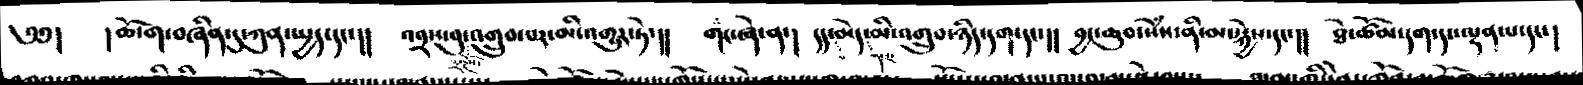༄༅།  །ཆོ་ག་བཞིན་དུ་ཀུན་སྤྱད་དང་།།  འབྲས་བུ་འགྲུབ་པར་མོ་འགྱུར་ཏེ་།།  གང་ཞེ་ན་།  དད་མེད་མི་འགྲུབ་ཉིད་དག་དང་།།  བྱང་ཆུབ་སེཾས་ནི་མ་སྐྱེས་དང་།།  ཐེ་ཚོམ་དག་དང་ལྡན་པ་དང་།
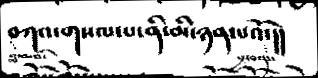བཀའ་གསལ་པ་ནི་མི་ཉན་པའོ་།།
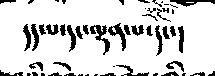དད་པ་དང་ལྡན་པ་དང་།
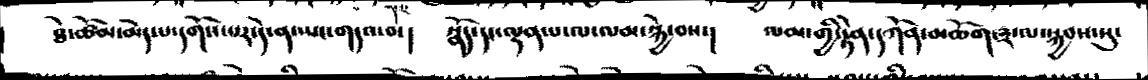ཐེ་ཚོམ་མེད་པ་དགོས་པར་དེ་ན་ཡང་དག་གདའ་བ་།  སྣོད་དང་ལྡན་པ་ལ་ལམ་སྐྱེ་བས་།  ལམ་གྱི་རྟེན་དཀོན་མཆོག་༣་ལ་སྐྱབས་སུ་
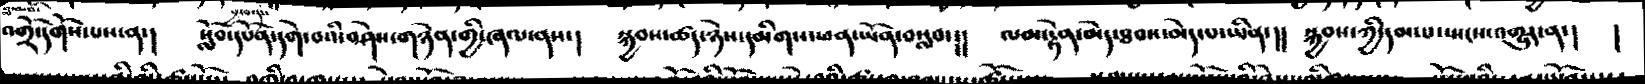འགྲོ་དགོས་པས་ན་།  སློབ་དཔོན་དགེ་བའི་བཤེས་གཉེན་གྱི་ཞལ་ནས་།  སྐྱབས་ཚད་ཉེས་དམིགས་ཕན་ཡོན་བསླབ་།།  ལམ་རྟེན་མེད་ཐབས་མེད་པ་ཡིན་།།  སྐྱབས་ཀྱི་དམ་པ་སྤངས་འགྱུར་ན་།  །
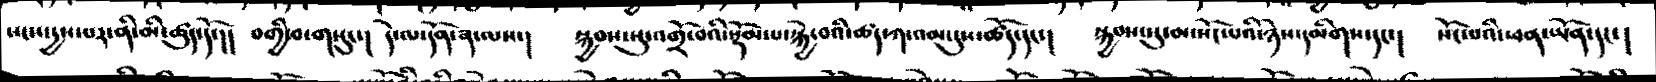སངས་དྱས་པར་ནི་མི་ཚུད་དོ་།།  བགྱི་བ་གསུང་།  དེ་ལ་དོན་ན་ལས་།  སྐྱབས་སུ་འགྲོ་བའི་སྡོམ་པ་སྐྱེ་བའི་ཚད་ཀ་འམ་དུས་ཚོད་དང་།  སྐྱབས་སུ་མ་སོང་པའི་ཉེས་དམིགས་དང་།  སོང་པའི་ཕན་ཡོན་དང་།
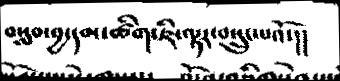བསླབ་བྱ་དམ་ཚིག་ཇི་ལྟར་བསྲུང་པའོ་།།
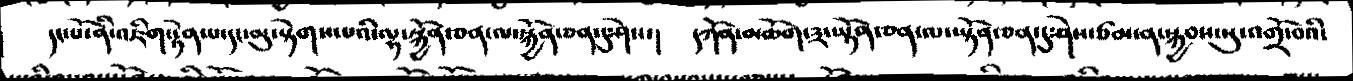དང་པོ་ནི་འཇིག་རྟེན་པ་དང་མུ་སྟེགས་པའི་ལྷ་སྐྱོན་ཅན་ལ་སྐྱོན་ཅན་དུ་ཤེས་།  དཀོན་མཆོག་༣་ཡྟོན་ཅན་པ་སྟོན་ཅན་ཅུ་ཤེས་ཙམ་ན་སྐྱབས་སུ་འགྲོ་བའི་
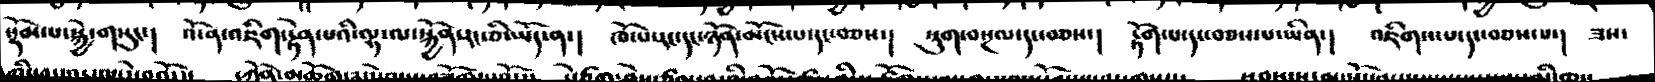སྡོམ་པ་སྐྱེ་གསུང་། འོ་ན་འཇིག་རྟེན་པའི་ལྷ་ལ་སྐྱོན་རང་ཅི་ཡོད་ན་།  ཁོ་པ་རང་དང་ཉོན་མོངས་པ་དང་བཅས་།  སྡུག་བསྔལ་དང་བཅས་། རྟོག་པ་དང་བཅས་པ་ཡིན་།  འཇིགས་པ་དང་བཅས་པ་། ཟས་
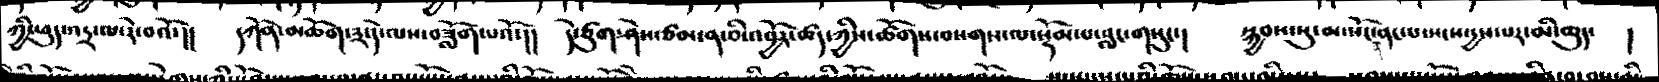ཀྱི་ཕུད་འདྲ་ལ་རེ་བའོ་།།  དཀོན་མཆོག་༣་དེ་ལས་བཟློག་པའོ་།།  དེ་ཙུག་ཤེས་ཙམ་ན་ཅི་འབྱོར་ཚད་ཀྱིས་ཚོགས་བསགས་ལ་སྡོམ་པ་བླང་གསུང་།  སྐྱབས་སུ་མ་སོང་ན་ནང་པ་སངས་དྱས་པར་མི་ཆུད་  །
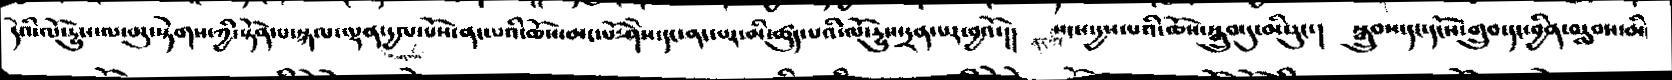དེའི་ལོ་དྱུས་ལ་ཆུ་སྟེགས་ཀྱི་སྟོན་པ་སྐལ་ལྡན་དྱལ་པོས་ནང་པའི་ཆོས་མང་པོ་ཤེས་དང་ནང་པར་མི་ཚུད་པའི་ལོ་དྱུས་དྲན་པར་བྱའོ་།།  སངས་དྱས་པའི་ཆོས་སྒྲུབ་དུ་མི་རུང་།  སྒྲུབས་དང་དངོས་གྲུབ་དང་བྱིན་བརླབས་མི་
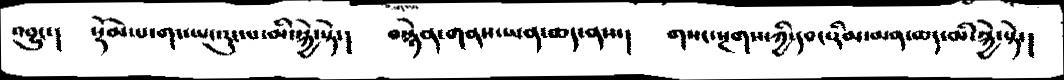འབྱུང་།  སྡོམ་པ་གང་ཡང་རུང་པ་མི་སྐྱེ་སྟེ་།  བསྙེན་གནས་ཡན་ཆད་ནས་།  གསང་སྔགས་ཀྱི་དབང་རིམ་མན་ཆད་མི་སྐྱེ་སྟེ་།
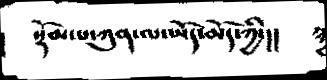སྡོམ་པ་ཀུན་ལ་ཡོད་མོད་ཀྱི་།།
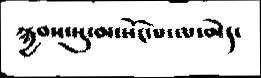སྐྱབས་སུ་མ་སོང་པ་ལ་མེད་
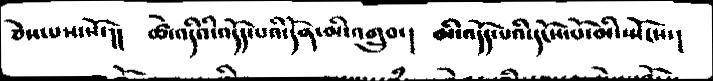ཅེས་པས་སོ་།།  ཚེ་འདིའི་འདོད་པའི་དོན་མི་འགྲུབ་།  མི་འདོད་པའི་དངོས་པོ་མི་སྤོངས་།
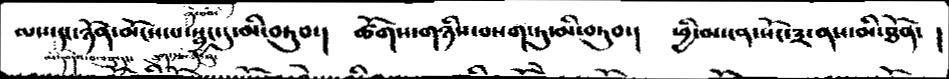ལས་དང་ཉོན་མོངས་པ་སྦྱང་དུ་མི་བཏུབ་།  ཚོགས་གཉིས་བསག་ཏུ་མི་བཏུབ་།  ཕྱི་མ་ངན་སོང་༣་ནས་མི་ཐོན་ །
